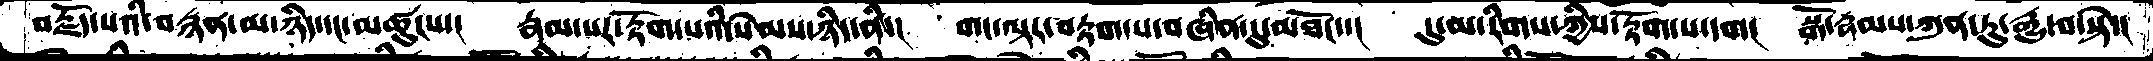བརྗོད་པའི་བརྙན་མ་ཉིད་དང་མཚུངས་།  རྣམ་པར་རྟོག་པའི་སེམས་ཉིད་ནི་།  གང་ལྟར་བརྟག་པ་བཞིན་དུ་མཐོང་་།  དུ་མ་རིགས་ཀྱིས་རྟོག་པ་དག།  སྒོ་རྣམས་ཀུན་ཏུ་རྒྱུ་བ་སྟེ་།
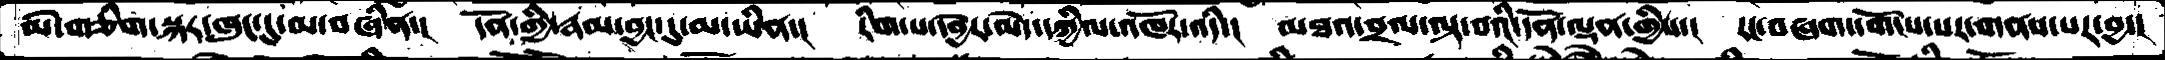མེ་གཅིག་སྐར་ཁུང་དུ་མ་བཞིན་།  དོན་གྱི་རྣམ་བྱང་དུ་མ་ཡིན་།  རིག་པ་དབྱེར་མེད་དཀྱིལ་འཁོར་འདི་།  མཐའ་བྲལ་ལྟ་བའི་དོན་ལྡན་གྱིས་།  རང་བཞག་དགོངས་པར་གནས་པར་བྱ་།
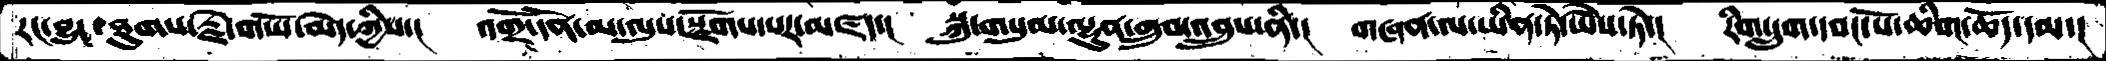རང་བྱུང་ཐུགས་རྗེ་གཡོ་མེད་ཀྱིས་།  འགྲོ་དོན་མ་ལུས་སྫོགས་པར་མཛད་།   སྐུ་གསུམ་ལྷུན་གྲུབ་འབྲུས་ནི་།  གཞན་ལ་ཡིན་ཏེ་ཡཻས་ཏེ་།  རིག་དྲུག་དབང་པོ་ཆིག་ཆོད་དམ་།
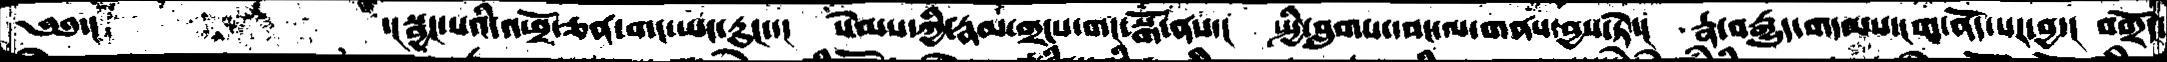༄༅་།         ་།སྦྱང་པའི་འཕྲོ་ཅན་གང་ཡང་རུང་།   སེམས་ཀྱི་རྣམ་གྲངས་གང་སྒོ་ནས་།  སྤྱི་བླུགས་དབང་ལ་གནས་བྱས་ཏེ་།   རྣ་བརྒྱུད་གདམས་ངག་ནོད་པར་བྱ་།  བགྲོད་
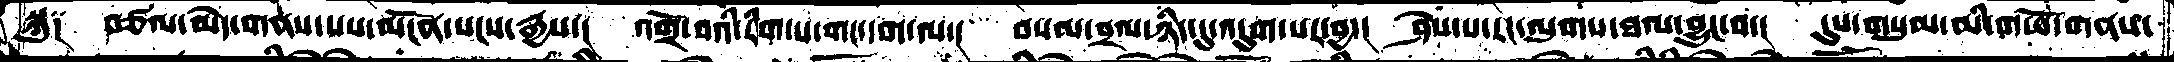སྐུ༑  བཙལ་མེད་གནས་པས་མངོན་སངས་རྒྱས་།  འགྲོ་བའི་རིག་པ་གང་དག་ལ་།  བསལ་བྲལ་ཉིད་དུ་འདུག་པར་བྱ་།  ཤེས་པ་རང་ལུགས་ཐལ་བྱུང་བ་།   དུས་གསུམ་མི་གཡོ་གནས་
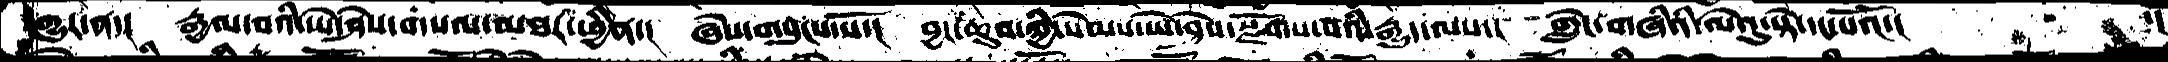གྱུར་ན་།  རྒྱལ་བའི་ཡེ་ཤེས་གསལ་མཐར་ཕྱིན་།  ཞེས་གསུངས་སོ་།  བྱང་ཆུབ་ཀྱི་སེམས་ཡེ་ཤེས་སྫོགས་པའི་རྒྱུད་ལས་།  གླེང་གཞིའི་ལེའུ་སྟེ་དང་པོའོ་།
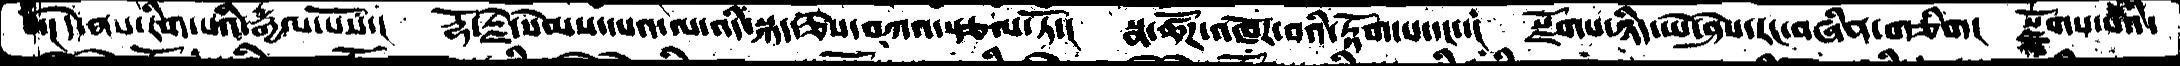་། དེ་ནས་རིག་པའི་རྒྱལ་པོས་།   རྡོ་རྗེ་སེམས་དཔའ་ལ་འདི་སྐད་ཅེས་བཀའ་སྩལ་ཏོ་།  སྣ་ཚོཌ་འཁོར་བའི་རྟོག་པ་དང་་།   སྫོགས་ཉིད་ཡེ་ཤེས་རང་བཞིན་གཅིག།  སྫོགས་པའི་
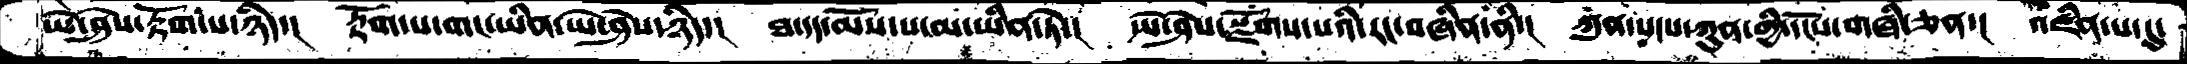ཡེ་ཤེས་རྟོག་པ་ཉིད་།  རྟོག་པ་གང་ཡིན་ཡེ་ཤེས་ཉིད་།  ཐ་དད་མོས་པ་མ་ཡིན་ཏེ་།   ཡེ་ཤེས་སྫོགས་པའི་རང་བཞིན་ནི་།  ཀུན་སངས་ཀུན་གྱི་དངོས་གཞི་ཅན་།  འཛིན་པ་དུ་
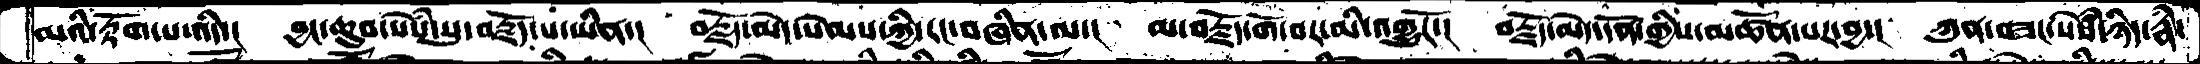མའི་རྟོག་པ་འདི་།   བྱང་ཆུབ་སེཾས་སུ་བརྗོད་པ་ཡིན་།  བརྗོད་མེད་སེམས་ཀྱི་རང་བཞིན་ལ་།  མ་བརྗོད་གོ་བར་མི་འགྱུརོ་།  བརྗོད་མེད་དོན་གྱིས་མཚོན་པར་བྱ་།  ཀུན་བཟང་སེཾས་ཉིད་རྣཾ་
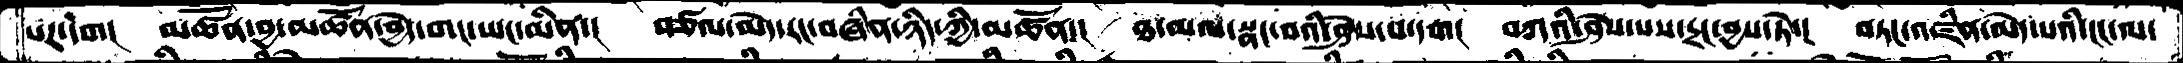པར་དག།   མཚོན་བྱ་མཚོན་བྱེད་གང་ཡང་མིན་།   བཙལ་མེད་རང་བཞིན་ཉིད་ཀྱི་མཚོན་།  ཐ་མལ་སྣང་བའི་ཤེས་པ་དག།   བཀའི་ཤེས་པས་དྲང་བྱས་ཏེ་།  བཏང་འཛིན་མེད་པའི་ངང་ལ་
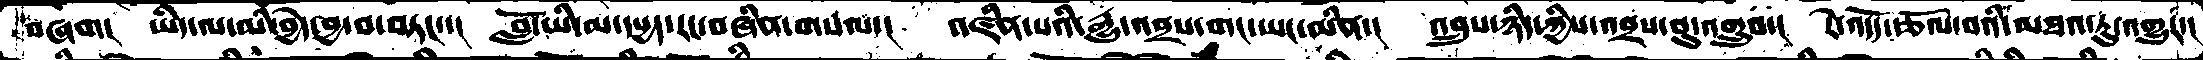བཞག།  ཡིད་ལ་མི་བྱེད་བྱ་བ་བཏང་།   བློ་ཡི་མ་དཔྱད་རང་བཞིན་གསལ་།   འཛིན་པའི་རྒྱུ་འབྲས་གང་ཡང་མིན་།  འབྲུས་ཉིད་ཀྱིས་འབྲས་བུ་འགྲུབ་།  རེ་འདོད་རྩོལ་བའི་མཐའ་རུ་འགྱུར་།
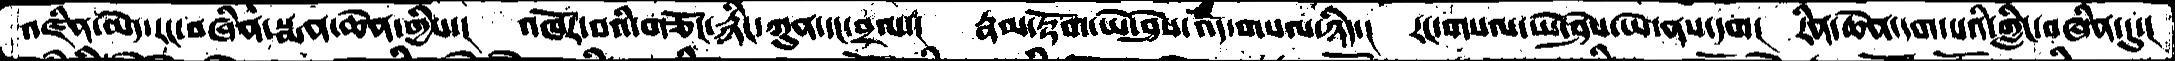འཛིན་མེད་རང་བཞིན་སྨན་ཆེན་གྱིས་།  འཁོར་བའི་གཅོང་རྙིང་ཀུན་དང་བྲལ་།  རྣམ་རྟོག་ཡེ་ཤེས་འོད་གསལ་ཉིད་།  རང་གསལ་ཡེ་ཤེས་ཡེ་ནས་དག།  རིན་ཆེན་དག་པའི་གླིང་བཞིན་དུ་།
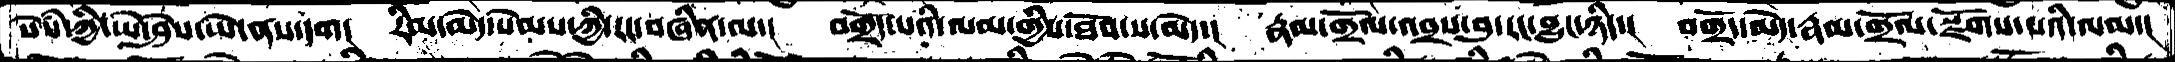སེཾས་ཀྱི་ཡེ་ཤེས་ཡེ་ནས་དག།  རིམ་མེད་སེམས་ཀྱི་རང་བཞིན་ལ་།  བགྲོད་པའི་ལམ་གྱིས་ཐོབ་པ་མེད་།  རྣམ་གྲོལ་འབྲས་བུ་རང་བྱུང་ཉིད་།  བགྲོད་མེད་རྣམ་གྲོལ་སྫོགས་པའི་ལམ་།
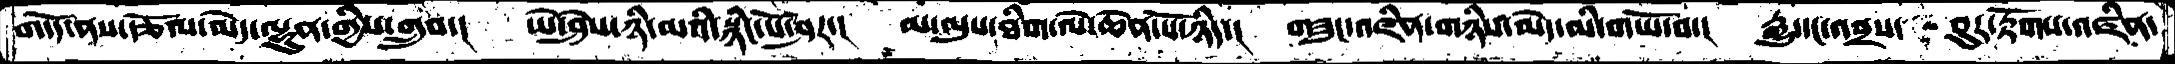གདོད་ནས་རྩོལ་མེད་ལྷུན་གྱིས་གྲུབ་།  ཡེ་ཤེས་ཉི་མའི་སྙིང་པོ་ཤར་།  མ་ལུས་ཐིག་ལེ་ཆེན་པོ་ཉིད་།  གཟུང་འཛིན་གཉིད་མེད་མི་གཡོ་བ་།  རྒྱུ་དང་འབྲས་  བུར་རྟོགས་འཛིན་
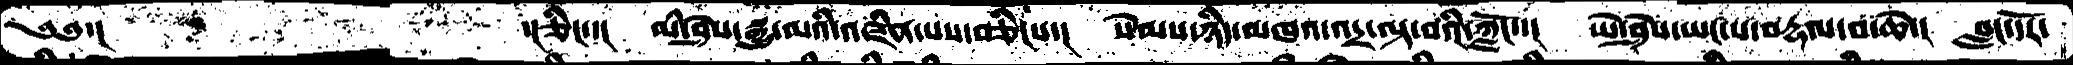༄༅་།              ་།ཅིང་་།  མི་ཤེས་སྒྱུ་མའི་འཛིན་པས་བཅིངས་།  སེམས་ཉིད་མཁའ་འདྲ་ལྟ་བའི་ཀློང་་།  ཡེ་ཤེས་ཡང་པ་བརྡལ་བ་ཆེ་།  བླང་དོར་
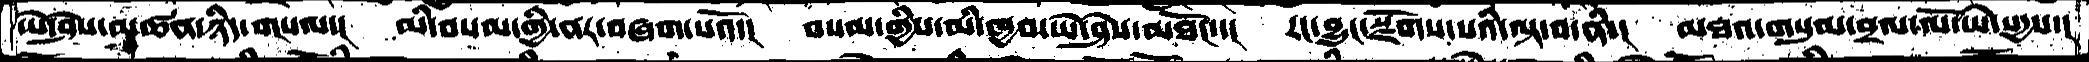ཡེ་ཤེས་མཚན་ཉིད་གསལ་།  མི་བསམ་གྱི་ནར་བཞག་པའོ་།  བསམ་གྱིས་མི་ཁྱབ་ཡེ་ཤེས་མཐོང་་།  རང་བྱུང་སྫོགས་པའི་ལྟ་བ་ནི་།  མཐའ་གསུམ་བྲལ་ལོ་ཡེ་སདྱས་།
